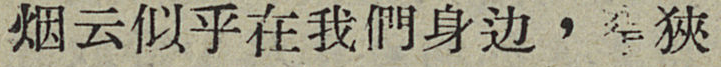烟云似乎在我們身边，窄狹
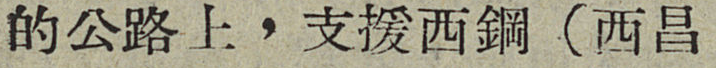的公路上，支援西鋼（西昌
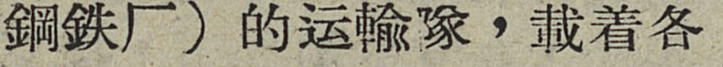鋼鉄厂）的运輸隊，載着各
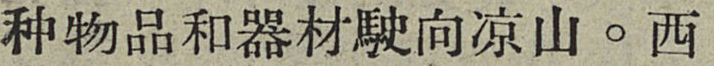种物品和器材駛向凉山。西
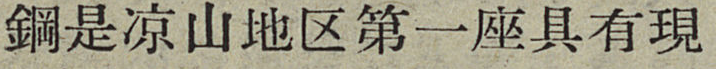鋼是凉山地区第一座具有現
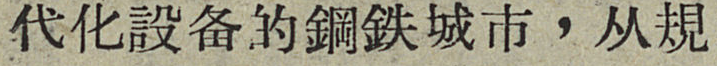代化設备的鋼鉄城市，从規
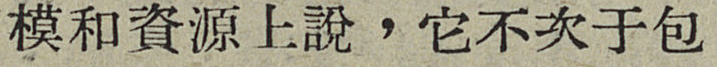模和資源上說，它不次于包
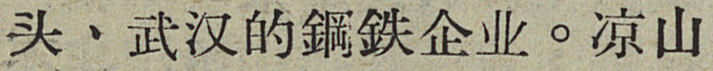头、武汉的鋼鉄企业。凉山
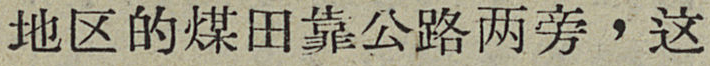地区的煤田靠共路两旁，这
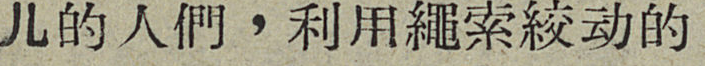儿的人們，利用繩索絞动的
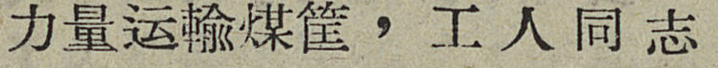力量运輸煤筐，工人同志
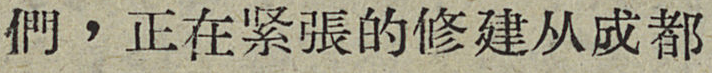們，正在紧張的修建从成都
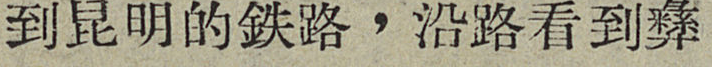到昆明的鉄路，沿路看到彝
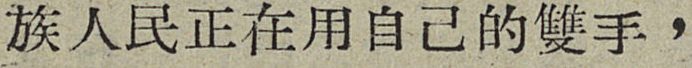族人民正在用自己的雙手，
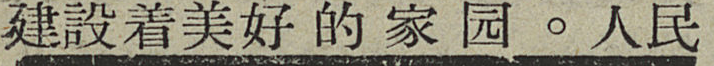建設着美好的家园。人民
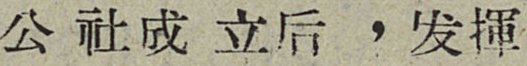公社成立后，发揮
